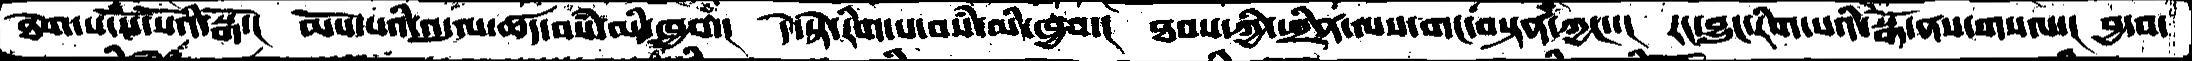ཐེག་པ་སོ་སོའི་སྒོ་།   མོས་པའི་འདུལ་ཚད་བསཾ་མི་ཁྱབ་།  དེ་སྟེ་རིག་པ་བསཾ་མི་ཁྱབ་།  ཐབས་ཀྱི་ཕྲིན་ལས་གང་བསྟན་ཀྱང་་།  རང་བྱུང་རིག་པའི་སྒོ་ནས་གསལ་།  བྱ་བ་
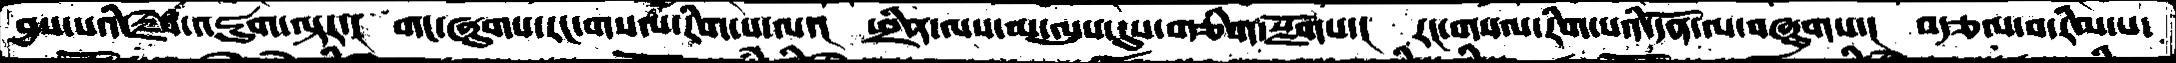བྱས་པའི་རྗེས་འཇུག་ལྟར་།  གང་ཞུགས་རང་གསལ་རིག་པ་ལ་།  ཕྲིན་ལས་མ་ལུས་དུས་གཅིག་སྫོགས་།  རང་གསལ་རིག་པའི་དོན་ལ་བཞུགས་།  བརྩལ་བ་རིམ་པ་
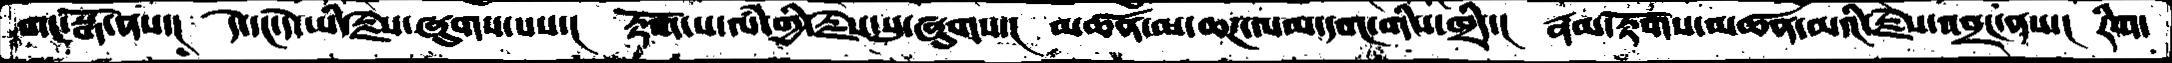གང་སྒོ་ནས་།   དེ་དང་དེ་ཡི་རྗེས་ཞུགས་པས་།   རྟོག་པ་ལཾ་གྱི་རྗེས་སུ་ཞུགས་།  མཚན་མ་ཆཌ་ལམ་དབང་གིས་ཁྲིད་།  རྣམ་རྟོགས་མཚན་མའི་རྗེས་འབྲང་ནས་།  རིག་
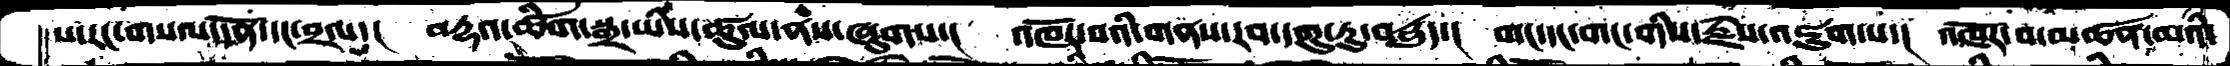ས་རང་གསལ་དོན་དང་བྲལ་།  བརྡའ་ཚིག་སྒྲ་ཡིས་ཚུལ་ནས་ཞུགས་།   འཁོར་བའི་གནས་རབ་དགུ་རུ་བདྱུད་།  གང་དང་གང་གིས་རྗེས་འཇུག་པ་།  འཁོར་བ་མཚན་མའི་
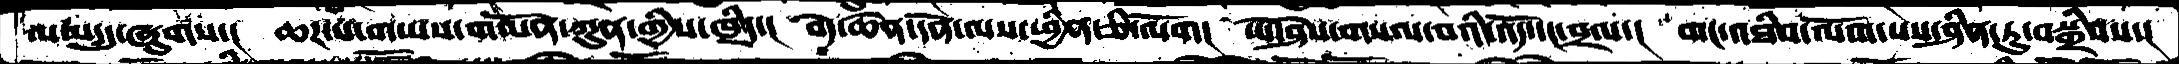ལམ་དུ་ཞུགས་།   ཆཌ་པ་གཡས་གཡོན་ཀུན་གྱིས་ཁྲིད་།  བདེ་ཆེན་དོན་ལས་ཕྱིན་ཅི་ལོག།  ཡེ་ཤེས་གསལ་བའི་འོད་དང་བྲལ་།  གང་འཐིབ་ལོག་པས་ཤིན་ཏུ་བསྒྲིབས་།
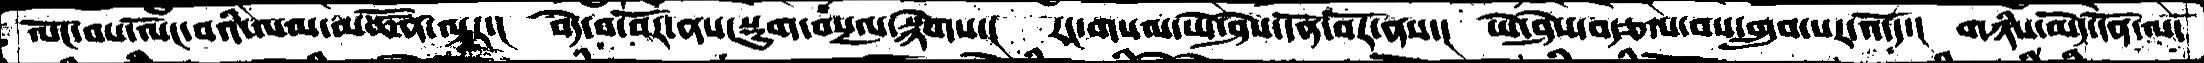ལོང་བས་ལོང་བའི་ལམ་མཚོན་ལྟར་།  བདེ་བ་བོར་ནས་སྡུག་བསྔལ་སྙེགས་།  རང་གསལ་ཡེ་ཤེས་དོན་བོར་ནས་།  ཡེ་ཤེས་བརྩལ་བས་གྲུབ་པར་འདོད་།  གཉིས་མེད་དོན་ལ་
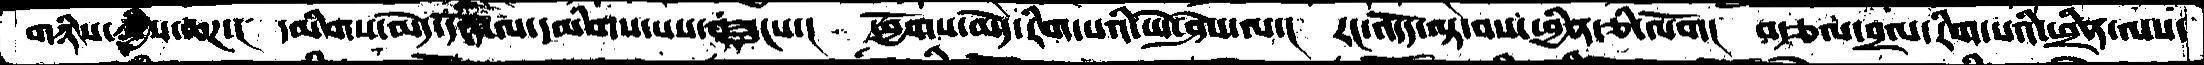གཉིས་ཀྱིས་ཆཌ་།  དམིགས་མེད་དོན་ལ་དམིགས་པས་བཟུངས་།  ཕྱོགས་མེད་རིག་པའི་ཡེ་ཤེས་ལ་།  རང་འདོད་ལྟ་བས་ཕྱིན་ཅི་ལོག།  བརྩལ་བྲལ་རིག་པའི་ཕྲིན་ལས་
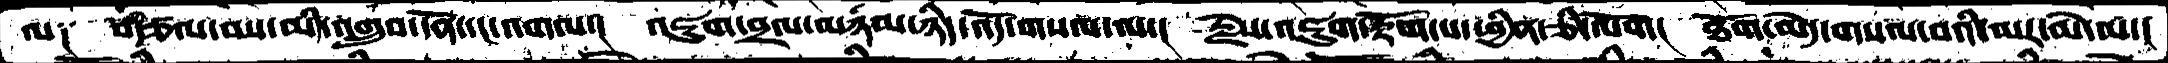ལ༑  བརྩལ་བས་མི་འགྲུབ་དོན་དང་འགལ་།  འཇུག་བྲལ་མཉམ་ཉིད་འོད་གསལ་ལ་།  རྗེས་འཇུག་རྟོགས་པ་ཕྱིན་ཅི་ལོག།  ཐོག་མེད་གསལ་བའི་མར་མེ་ལ་།
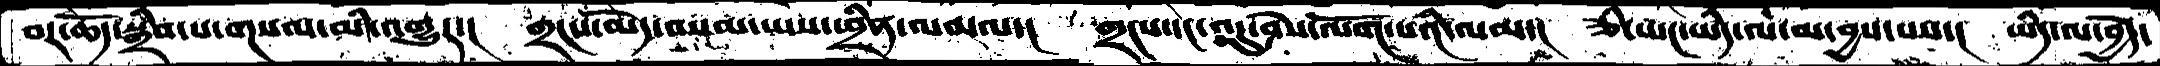བར་ཆོད་སྒྲིབ་པ་གསལ་མི་འགྱུར་།  གྲངས་མེད་བསམ་ཡས་ཕྲིན་ལས་ལ་།  གྲངས་དང་འདུ་ཤེས་ལོག་པའི་ལམ་།  ཅི་ཡང་ཡིད་ལ་མ་བྱས་པས་།  ཡིད་ལ་བྱེད་
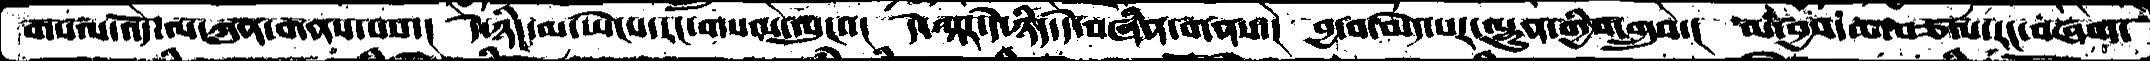གསལ་འདོ་ལ་ཀུན་གནས་པས་།  དེ་ཉིད་མ་ཡེངས་རང་གསལ་ལུང་་།  དེ་ལྟར་དེ་ཉིད་དེ་བཞིན་གནས་།  བྱ་བ་མེད་པར་ལྷུན་གྱིས་གྲུབ་།  མ་བྱས་མ་བཙལ་རང་བཞག་
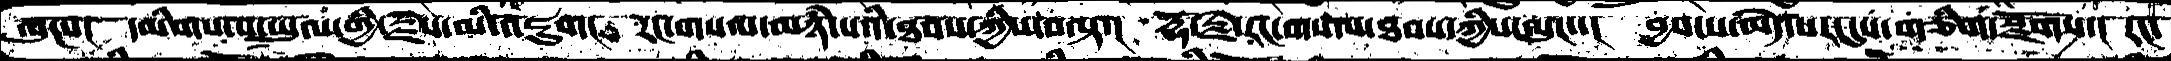ལུངས།   དམིགས་པ་ཡུལ་གྱི་རྗེས་མི་འཇུག།   རང་གསལ་མཉཾ་པའི་ཐབས་ཀྱིས་བལྟ་།  རྡོ་རྗེ་རང་གསལ་ཐབས་ཀྱིས་ལུང་་།  བྱས་པ་མེད་པར་དུས་གཅིག་སྫོགས་།  རང་
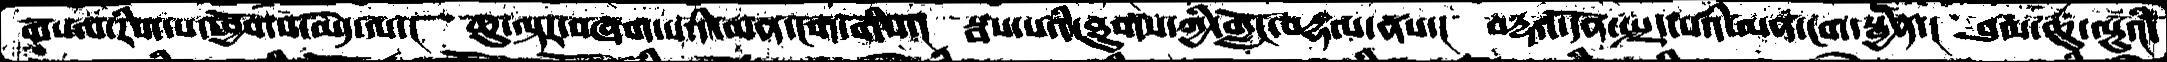གསལ་རིག་པ་ཕྱོགས་མེད་ལ་།  ཆུ་ལྟར་བཞག་པའི་མན་ངག་གིས་།  སྦས་པའི་ཐུགས་གྱི་གློང་བརྡལ་ནས་།  བརྡའ་དོན་སྤྲད་པའི་མན་ངག་སྦྱིན་།  བུམ་ཆུ་ལྟུའི་
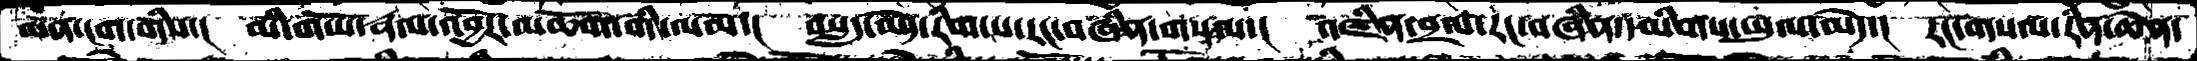མན་ངག་གིས་།  མི་གཡོ་རྣལ་འབྱོར་མཆོག་གི་ལམ་།  བསླད་མེད་རིག་པ་རང་བཞིན་གསལ་།  འཛིན་བྲལ་རང་བཞིན་དམིགས་ཡུལ་མེད་།  རང་གསལ་རིན་ཆེན་
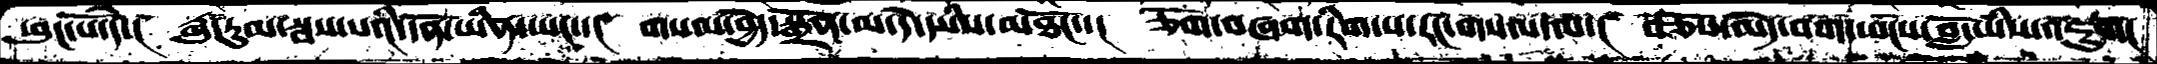ཕུང་པོ་དེ་།  རྒུ་རུམ་སྦས་པའི་དོན་ཡིན་ཡང་་།  གསལ་བྱེད་སྒྲོན་མ་དེ་ཡིས་མཐོང་་།  ཅོག་བཞག་རིག་པ་རང་གསལ་ལ་།  བཅོས་མེད་བགད་བོངས་བློ་ཡིས་འཇུག་
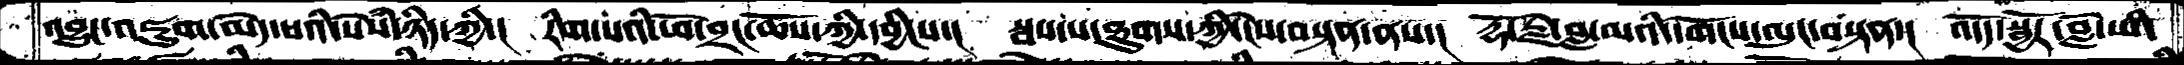འབྱུང་འཇུག་མེད་པའི་སེཾས་ཉིད་ཀྱི་།  རིག་པའི་ཕོ་བྲང་ཆོས་ཀྱི་དབྱིངས་།  སྦས་པ་ཐུགས་ཀྱི་ངེས་བསྟན་ནས་།  རྡོ་རྗེ་བླ་མའི་དགོངས་ལུང་བསྟན་།  འདོད་སྦྱོར་བློ་ཡི་
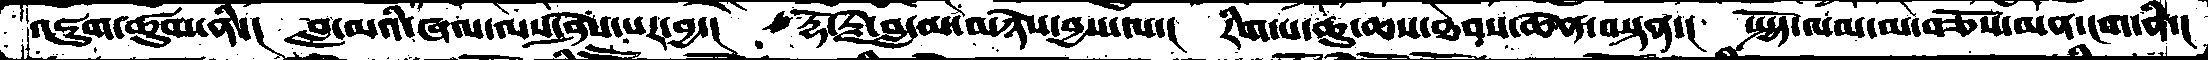འཇུག་ཚུལ་ནི་  བླ་མའི་ཞལ་ལས་ཤེས་པར་བྱ་།  རྡོ་རྗེ་བླ་མ་མཉེས་བྱས་ལ་།  རིག་པ་ཆུ་ཆས་ཐེབས་ཆེན་བསྟན་།  སྤྱོད་ལམ་མ་བཅོས་མན་ངག་ནི་།
